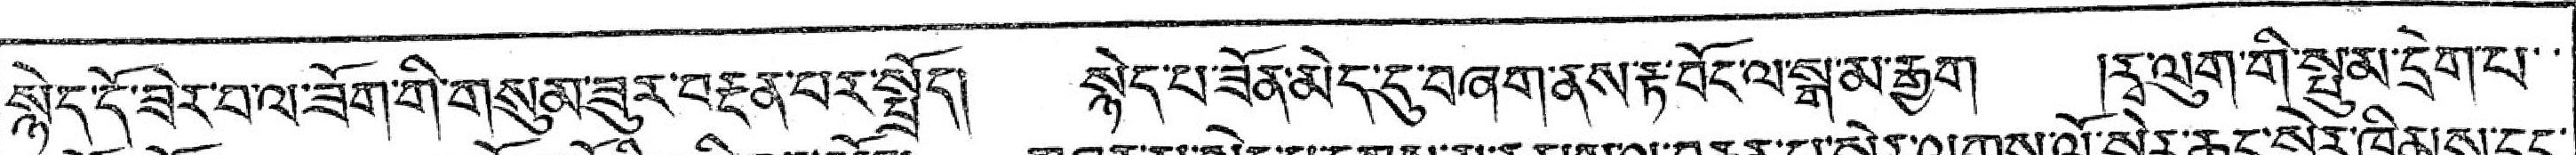སྙེད་དོ་ཟེར་བ་ལ་ཟོག་གི་གསུམ་ཟུར་བརྔན་པར་སྤྲོད། སྙེད་པ་ཟོན་མེད་དུ་བཞག་ནས་རྟ་བོང་ལ་སྒ་མ་རྒྱག །རྭ་ལུག་གི་སྤུ་མ་དྲེག་པ་་
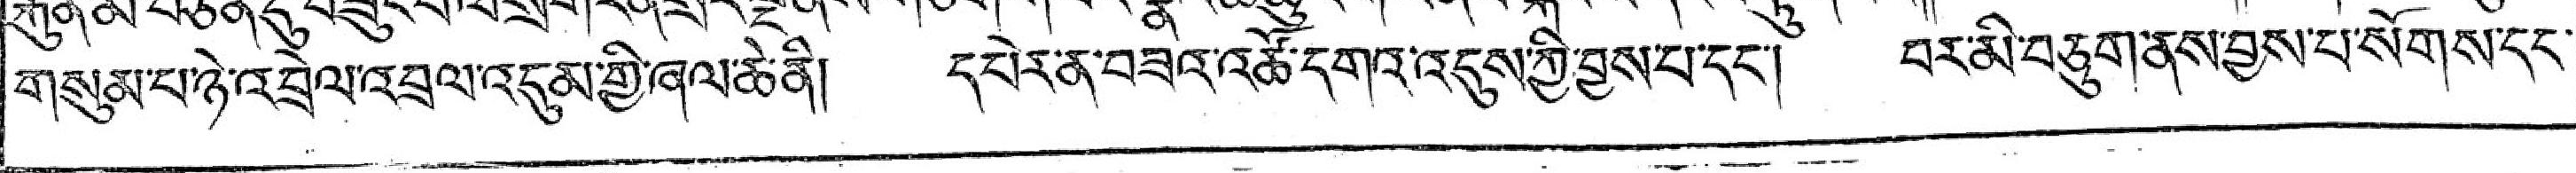གསུམ་པ་ཉི་འབྲེལ་འབྲལ་འདུམ་གྱི་ཞལ་ཆེ་ནི། དཔེར་ན་བཟའ་འཚོ་དགའ་འདུས་ཀྱི་བྱས་པ་དང་། བར་མི་བཅུག་ནས་བྱས་པ་སོགས་དང་
